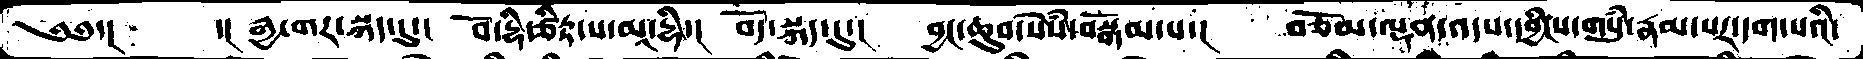༄༅་།  ་། རྒྱ་གར་སྐད་དུ།  བོ་དྷི་ཙིཏྟ་ས་མཱདྷི་།  བོད་སྐད་དུ་།  བྱང་ཆུབ་སེཾས་བསྒོམ་པ་།  བཅོམ་ལྡན་འདས་དབྱིངས་གསུཾ་རྣམ་པར་དག་པའི་
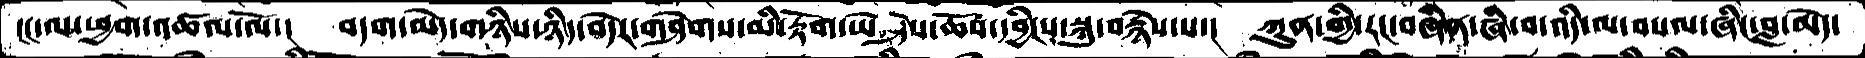ངང་ལ་ཕྱག་འཚལ་ལོ་།  བདག་མེད་གཉིས་ཉིད་བདེར་གཤེགས་མི་རྟོག་ཡེ་ཤེས་ཆོས་དབྱིངས་སྐུ་བརྙེས་པ་།  ཀུན་གྱི་རང་བཞིན་ཞི་བ་འདི་ལ་བསལ་ཞིང་བླ་མེད་
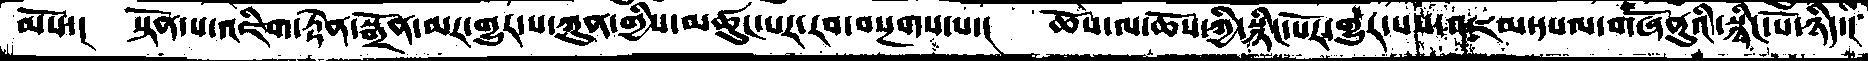མོས་།  སྟོན་པ་འཇིག་རྟེན་སྒྲོན་མར་གྱུར་པ་ཀུན་གྱིས་མཚུངས་པར་རབ་བསྔགས་པ་།  ཆོས་ལ་ཆོས་ཀྱི་སྙིང་པོར་གྱུར་པས་འཇམ་དཔལ་གཞོནུའི་སྙིང་པོ་ཉིད་།
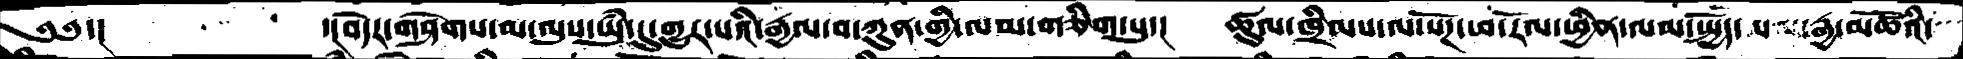༄༅་།   ་།བདེར་གཤེགས་མ་ལུས་ཡུཾ་དུ་གྱུར་པའི་རྒྱལ་བ་ཀུན་གྱི་ལམ་གཅིག་པུ་།  ཚུལ་ཁྲིམས་ལ་སོཌ་ཕ་རོལ་ཕྱིན་ལམ་སྤྱོད་པ་རྒྱ་མཚོའི་
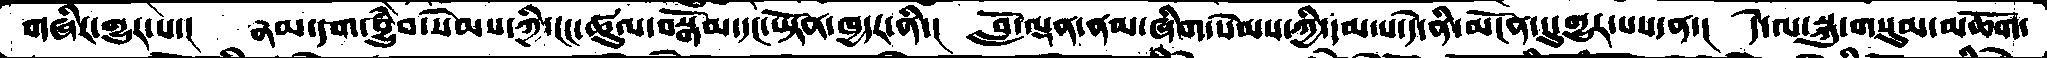གཞིར་གྱུར་པ་།  རྣམ་དག་བྱུཾབ་སེམས་ཀྱི་ངང་ཚུལ་བསྒོམ་དང་ཡྟོན་ཁྱདར་ནི་།  བློ་ལྡན་ནམ་ཞིག་སེམས་ཀྱི་དམ་པ་དེ་ནི་མངོན་དུ་གྱུར་པས་ན་།  དེ་ལ་སྐུ་གསུམ་མཆོག་
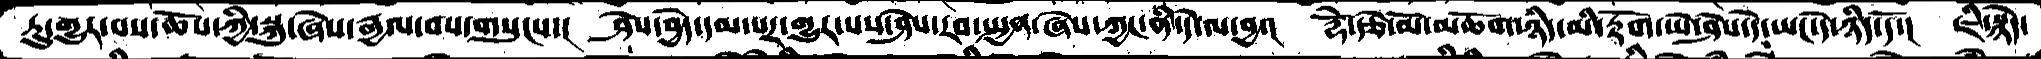ཏུ་གྱུར་པས་ཆོས་ཀྱི་སྐུ་ཞེས་རྒྱལ་བས་གསུངས་།  ཤེས་བྱེད་དམ་པར་གྱུར་པས་ཤེས་རབ་སྤྱན་ཞེས་ཀྱང་ནི་དེ་ལ་བྱ་།  རྡོེ་རྩེ་མོ་མཆོག་ཉིད་མི་རྟོག་ཡེ་ཤེས་དེ་ཡང་དེ་ཉིད་དོ་།  ཇི་སྙེད་
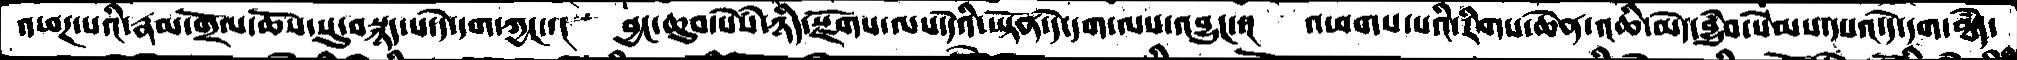འཕཌ་པའི་རྣམ་གྲོལ་ཆོས་སུ་བསྙད་པ་དེ་དག་ཀྱང་་།  བྱང་ཆུབ་སེཾས་ཉིད་སྫོགས་ལས་དེའི་ཡྟོན་དེ་དག་ལས་འབྱུང་་།  འཕགས་པའི་རིགས་ཆེན་འཆི་མེད་བྱུཾབ་སེམས་དཔའ་དེ་དག་ཐདཾ་
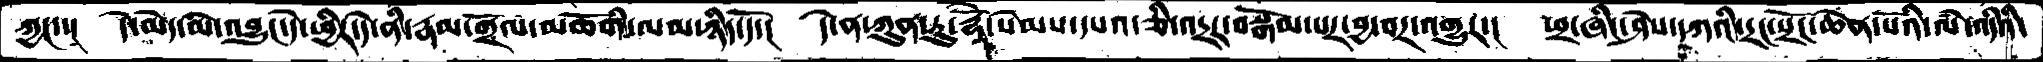ཀྱང་་།  དེ་མེད་མི་འབྱུང་དེ་ཕྱིར་དེ་ནི་རྣམ་གྲོལ་མཆོགི་ལམ་ཉིད་དོ་།  དེ་ན་ཀུན་ཏུ་རྡོེ་སེམས་དཔའ་ཅི་འདྲར་བསྒོམ་པར་བྱ་བར་འགྱུར་།  ཕྲ་ཞིང་ཤེས་དཀའི་དྲང་སྲོང་ཆེན་པོའི་ལཾ་འདིའི་
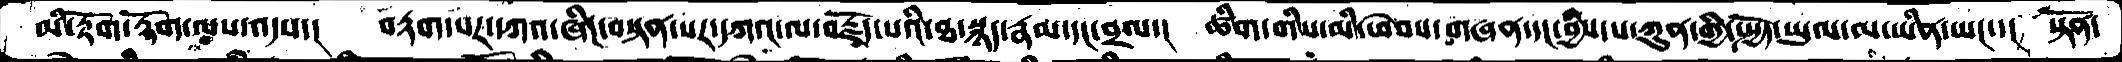མི་རྟོག་རྟོག་ལས་འདས་།  བརྟག་པར་དཀའ་ཞིང་བསྟན་པར་དཀའ་ལ་བརྗོད་པའི་ཐ་སྙད་རྣམ་དང་བྲལ་།  ཚིག་གིས་མི་ཕེབས་གཞན་དང་བྱིས་པ་ཀུན་གྱི་སྤྱོད་ཡུལ་མ་ཡིན་ཡང་་། སྟོན་
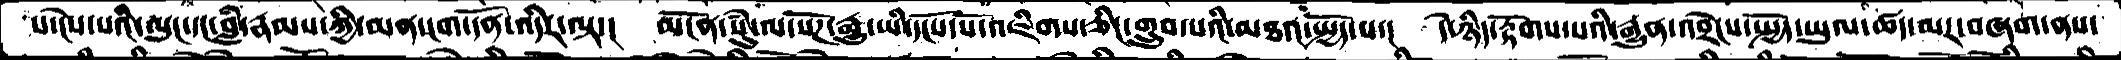པ་ངེས་པའི་ལུང་དང་བླཾ་རྣམས་ཀྱི་མན་ངག་དོན་འདིར་ལྟ་།  མངོན་སུཾ་ལ་སོཌ་རྒྱུ་ཡི་དངོས་པོ་འཇིགས་ཅིང་གྲུབ་པའི་མཐའ་སྤྱོད་པ་།  དེ་ཉིད་རྟོགས་པའི་རྒྱུན་འབྲེངས་སྤྱོད་ཡུལ་ཚད་མར་བཞག་ནས་
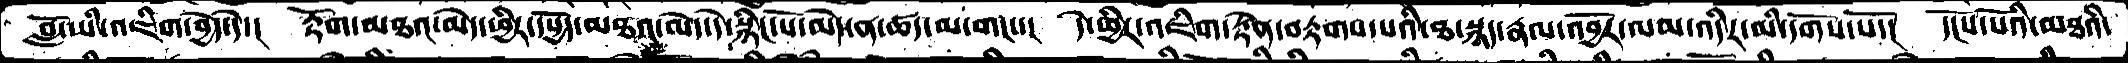བློ་ཡི་འཇིག་བྱེད་དེ་།  རྟོག་མཐའ་མེད་ཕྱིར་དཔྱོད་མཐའ་མེད་དེ་སྙིང་པོ་མེད་ན་ཚད་མ་གང་་།  དེ་ཕྱིར་འཇིག་རྟེན་བརྟགས་པའི་ཐ་སྙད་རྣལ་འབྱོར་ལམ་འདིར་མི་དགོས་སོ་།  དངོས་པོའི་མཐའི་
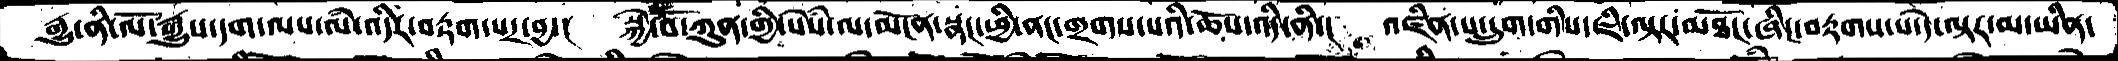རྒྱུ་ནི་ལོ་རྒྱུས་དག་ལས་ལཾ་འདིར་བརྟག་པར་བྱ་།  སྐྱེ་བོ་ཀུན་གྱི་སེཾས་ལ་མངོན་སྣང་ཕྱི་ནང་གྲགས་པའི་ཆོས་ཉིད་ནི་།  འཛིན་པ་དྲུག་གིས་ཇི་ལྟར་མཐོང་ཞིང་བརྟགས་པ་དེ་ལྟར་མ་ཡིན་
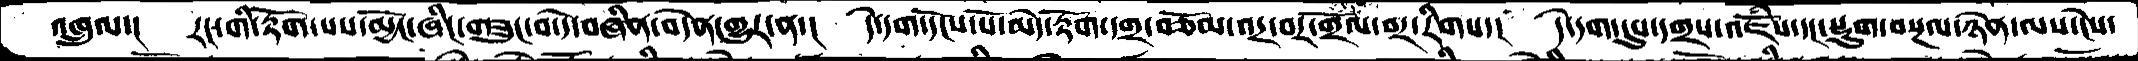འཁྲུལ་།  རང་གི་རྟོག་པས་མྱོང་ཞིང་གཟུང་བ་དེ་བཞིན་བདེན་གྱུར་ན་།  དེ་དག་དངོས་པོ་མེད་རྟོག་དགྲ་བཅོམ་འདྲ་བར་གྲོལ་བར་རིགས་།  དེ་དག་དུས་དགྲས་འཇོཾས་དང་སྡུག་བསྔལ་ཉེན་ལས་ངེས་
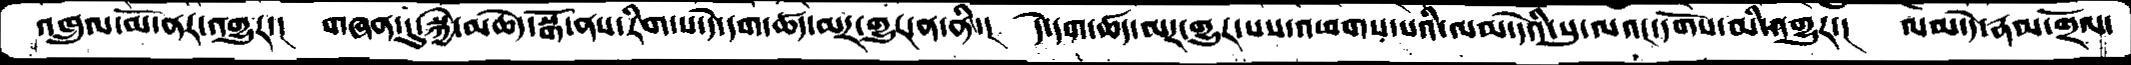འཁྲུལ་མོ་ནར་འགྱུར་།  གཞན་དུ་སྐྱེ་མཆེད་སྒོ་ནས་རིག་པ་དེ་དག་ཚད་མར་གྱུར་ན་ནི་།  དེ་དག་ཚད་མར་གྱུར་པས་འཕགས་པའི་ལམ་དེའི་སུ་ལའང་དགོས་མི་འགྱུར་།  ལམ་དེ་རྣམ་གྲོལ་
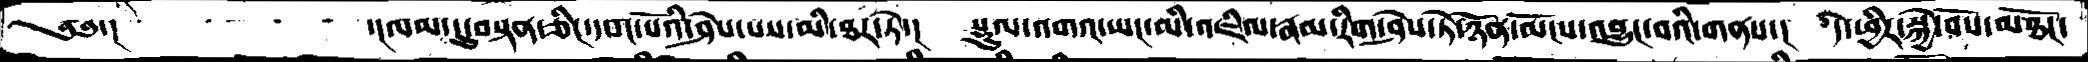༄༅་།    ་།ལམ་དུ་བསྟན་ཅིང་དབང་པོའི་ཤེས་པས་མི་ཐར་ཏེ་།  སྡུག་འགའ་ཡང་མི་འཇིལ་རྣམ་རིག་ཤེས་ཏེ་ཉོན་མོངས་འབྱུང་བའི་གནས་།  དེ་ཕྱིར་སྐྱེ་བོས་མཐོང་
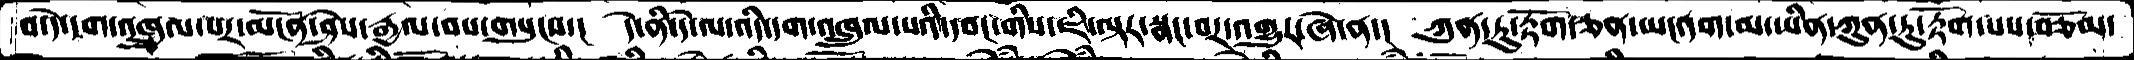བ་དེ་དག་འཁྲུལ་པར་མངོན་ཤེས་རྒྱལ་བས་གསུངས་།  དེ་ནི་དེ་ལ་འདི་དག་འཁྲུལ་པའི་དབང་གིས་ཇི་ལྟར་སྣང་བར་འགྱུར་ཞེ་ན་།  ཀུན་ཏུ་རྟོག་ཅན་ཡང་དག་མ་ཡིན་ཀུན་ཏུ་རྟོག་པས་བཅོམ་
